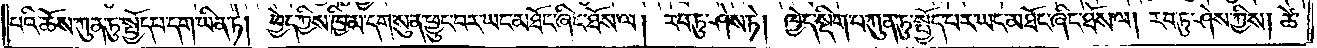པའི་ཆོས་ཀུན་ཏུ་སྤྱོད་པ་དག་ཡིན་ཏེ། ཕྱེད་ཀྱིས་ཁྱིམ་དག་སུན་ཕྱུང་བར་ཡང་མཐོང་ཞིང་ཐོས་ལ། རབ་ཏུ་ཤེས་ཏེ། ཁྱེད་སྡིག་པ་ཀུན་ཏུ་སྤྱོད་པར་ཡང་མཐོང་ཞིང་ཐོས་ལ། རབ་ཏུ་ཤེས་ཀྱིས། ཚེ་
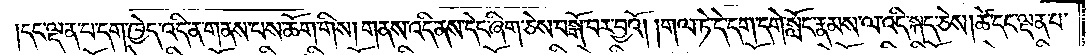དང་ལྡན་པ་དག་ཁྱེད་འདི་ན་གནས་པས་ཆོག་གིས། གནས་འདི་ནས་དེང་ཞིག་ཅེས་བསྒོ་བར་བྱའོ། །གལ་ཏེ་དེ་དག་དགེ་སློང་རྣམས་ལ་འདི་སྐད་ཅེས། ཚེ་དང་ལྡན་པ་
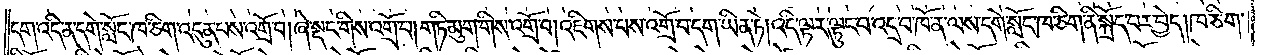དག་འདི་ན་དགེ་སློང་ཁ་ཅིག་འདུན་པས་འགྲོ་བ།ཞེ་སྡང་གིས་འགྲོ་བ། གཏི་མུག་གིས་འགྲོ་བ།འཇིགས་པས་འགྲོ་བ་དག་ཡིན་ཏེ།འདི་ལྟར་ལྟུང་བ་འདྲ་བ་ཁོ་ན་ལས་དགེ་སློང་ཁ་ཅིག་ནི་སྐྲོད་བར་བྱེད། ཁ་ཅིག་
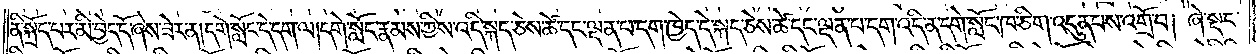ནི་སྐྲོད་པར་མི་བྱེད་དོ་ཞེས་ཟེར་ན།དགེ་སློང་དེ་དག་ལ། དགེ་སློང་རྣམས་ཀྱིས་འདི་སྐད་ཅེས་ཚེ་དང་ལྡན་པ་དག་ཁྱེད་དེ་སྐད་ཅེས་ཚེ་དང་ལྡན་པ་དག་འདི་ན་དགེ་སློང་ཁ་ཅིག་འདུན་པས་འགྲོ་བ། ཞེ་སྡང་
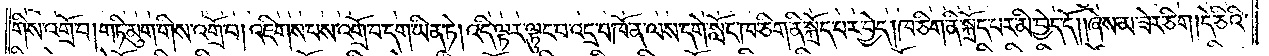གིས་འགྲོ་བ། གཏི་མུག་གིས་འགྲོ་བ། འཇིགས་པས་འགྲོ་བ་དག་ཡིན་ཏེ། འདི་ལྟར་ལྟུང་བ་འདྲ་བ་ཁོ་ན་ལས་དགེ་སློང་ཁ་ཅིག་ནི་སྐྲོད་པར་བྱེད།ཁ་ཅིག་ནི་སྐྲོད་པར་མི་བྱེད་དོ། །ཞེས་མ་ཟེར་ཅིག །དེ་ཅིའི་
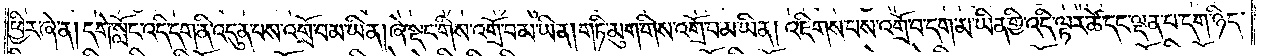ཕྱིར་ཞེ་ན། དགེ་སློང་འདི་དག་ནི་འདུན་པས་འགྲོ་བ་མ་ཡིན ཞེ་སྡང་གིས་འགྲོ་བ་མ་ཡིན། གཏི་མུག་གིས་འགྲོ་བ་མ་ཡིན། འཇིགས་པས་འགྲོ་བ་དག་མ་ཡིན་གྱི་འདི་ལྟར་ཚེ་དང་ལྡན་པ་དག་ཉིད་
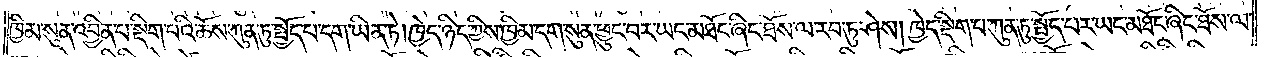ཁྱིམ་སུན་འབྱིན་པ་སྡིག་པའི་ཆོས་ཀུན་ཏུ་སྤྱོད་པ་དག་ཡིན་ཏེ། ཁྱེད་ཉིད་ཀྱིས་ཁྱིམ་དག་སུན་ཕྱུང་བར་ཡང་མཐོང་ཞིང་ཐོས་ལ་རབ་ཏུ་ཤེས། ཁྱེད་སྡིག་པ་ཀུན་ཏུ་སྤྱོད་པར་ཡང་མཐོང་ཞིང་ཐོས་ལ་
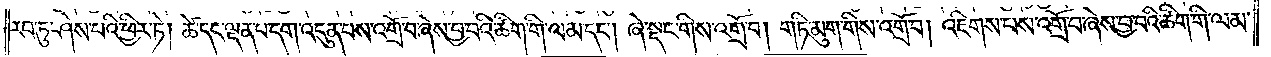རབ་ཏུ་ཤེས་པའི་ཕྱིར་ཏེ། ཚེ་དང་ལྡན་པ་དག་འདུན་པས་འགྲོ་བ་ཞེས་བྱ་བའི་ཚིག་གི་ལམ་དང༌། ཞེ་སྡང་གིས་འགྲོ་བ། གཏི་མུག་གིས་འགྲོ་བ། འཇིགས་པས་འགྲོ་བ་ཞེས་བྱ་བའི་ཚིག་གི་ལམ་
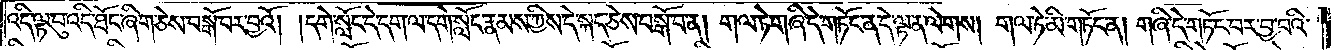འདི་ལྟ་བུ་འདི་ཐོང་ཞིག་ཅེས་བསྒོ་བར་བྱའོ། །དགེ་སློང་དེ་དག་ལ་དགེ་སློང་རྣམས་ཀྱིས་དེ་སྐད་ཅེས་བསྒོ་བ་ན། གལ་ཏེ་གཞི་དེ་གཏོང་ན་དེ་ལྟ་ན་ལེགས། གལ་ཏེ་མི་གཏོང་ན། གཞི་དེ་གཏོང་བར་བྱ་བའི་
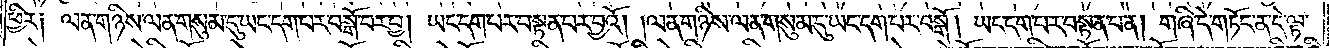ཕྱིར༑ ལན་གཉིས་ལན་གསུམ་དུ་ཡང་དག་པར་བསྒོ་བར་བྱ། ཡང་དག་པར་བསྟན་པར་བྱའོ། །ལན་གཉིས་ལན་གསུམ་དུ་ཡང་དག་པར་བསྒོ། ཡང་དག་པར་བསྟན་པ་ན། གཞི་དེ་གཏོང་ན་དེ་ལྟ་
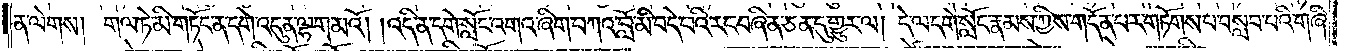ན་ལེགས། གལ་ཏེ་མི་གཏོང་ན་དགེ་འདུན་ལྷག་མའོ། །འདི་ན་དགེ་སློང་འགའ་ཞིག་བཀའ་བློ་མི་བདེ་བའི་རང་བཞིན་ཅན་དུ་གྱུར་ལ། དེ་ལ་དགེ་སློང་རྣམས་ཀྱིས་གདོན་པར་གཏོགས་པ་བསླབ་པའི་གཞི་
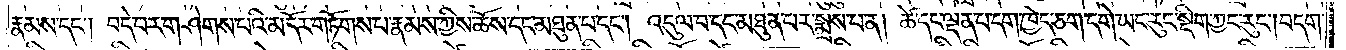རྣམས་དང༌། བདེ་བར་གཤེགས་པའི་མདོར་གཏོགས་པ་རྣམས་ཀྱིས་ཆོས་དང་མཐུན་པ་དང༌། འདུལ་བ་དང་མཐུན་པར་སྨྲས་པ་ན། ཚེ་དང་ལྡན་པ་དག་ཁྱེད་ཅག་དགེ་ཡང་རུང་སྡིག་ཀྱང་རུང༌། བདག་
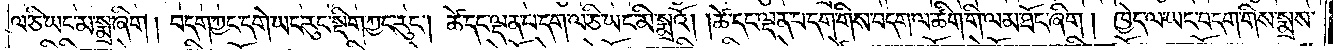ལ་ཅི་ཡང་མ་སྨྲ་ཞིག། བདག་ཀྱང་དགེ་ཡང་རུང་སྡིག་ཀྱང་རུང༌། ཚེ་དང་ལྡན་པ་དག་ལ་ཅི་ཡང་མི་སྨྲའོ། །ཚེ་དང་ལྡན་པ་དག་གིས་བདག་ལ་ཚིག་གི་ལམ་ཐོང་ཞིག། ཁྱེད་ལ་ཡང་བདག་གིས་སྨྲས་
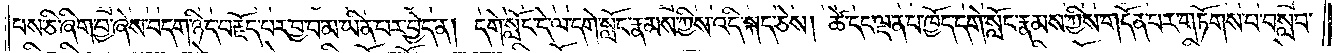པས་ཅི་ཞིག་བྱ་ཞེས་བདག་ཉིད་བརྗོད་པར་བྱ་བ་མ་ཡིན་པར་བྱེད་ན། དགེ་སློང་དེ་ལ་དགེ་སློང་རྣམས་ཀྱིས་འདི་སྐད་ཅེས། ཚེ་དང་ལྡན་པ་ཁྱོད་དགེ་སློང་རྣམས་ཀྱིས་གདོན་པར་གཏོགས་པ་བསླབ་
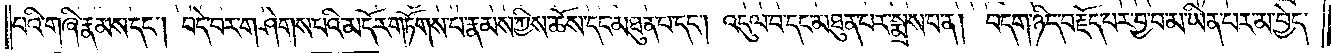པའི་གཞི་རྣམས་དང༌། བདེ་བར་གཤེགས་པའི་མདོར་གཏོགས་པ་རྣམས་ཀྱིས་ཆོས་དང་མཐུན་པ་དང༌། འདུལ་བ་དང་མཐུན་པར་སྨྲས་པ་ན། བདག་ཉིད་བརྗོད་པར་བྱ་བ་མ་ཡིན་པར་མ་བྱེད་
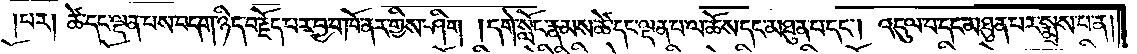།པར། ཚེ་དང་ལྡན་པས་བདག་ཉིད་བརྗོད་པར་བྱ་བ་ཁོ་ནར་གྱིས་ཤིག །དགེ་སློང་རྣམས་ཚེ་དང་ལྡན་པ་ལ་ཆོས་དང་མཐུན་པ་དང༌། འདུལ་བ་དང་མཐུན་པར་སྨྲས་པ་ན།
